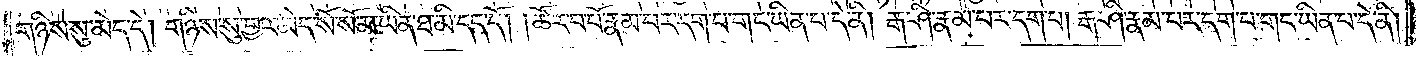གཉིས་སུ་མེད་དེ། གཉིས་སུ་བྱར་མེད་སོ་སོ་མ་ཡིན་ཐ་མི་དད་དོ། །ཚོར་བ་པོ་རྣམ་པར་དག་པ་གང་ཡིན་པ་དེ་ནི། རྒ་ཤི་རྣམ་པར་དག་པ། རྒ་ཤི་རྣམ་པར་དག་པ་གང་ཡིན་པ་དེ་ནི།
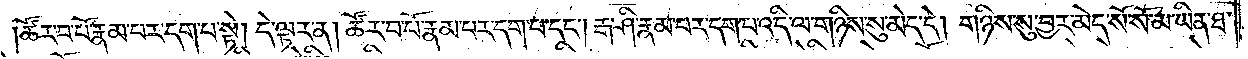ཚོར་བ་པོ་རྣམ་པར་དག་པ་སྟེ། དེ་ལྟར་ན། ཚོར་བ་པོ་རྣམ་པར་དག་པ་དང༌། རྒ་ཤི་རྣམ་པར་དག་པ་འདི་ལ་གཉིས་སུ་མེད་དེ། གཉིས་སུ་བྱར་མེད་སོ་སོ་མ་ཡིན་ཐ་
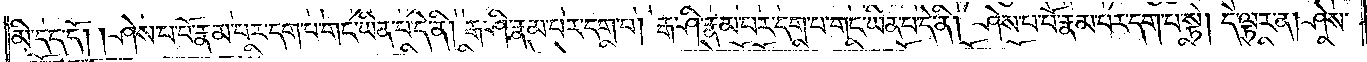མི་དད་དོ། །ཤེས་པ་པོ་རྣམ་པར་དག་པ་གང་ཡིན་པ་དེ་ནི། རྒ་ཤི་རྣམ་པར་དག་པ། རྒ་ཤི་རྣམ་པར་དག་པ་གང་ཡིན་པ་དེ་ནི། ཤེས་པ་པོ་རྣམ་པར་དག་པ་སྟེ། དེ་ལྟར་ན། ཤེས་
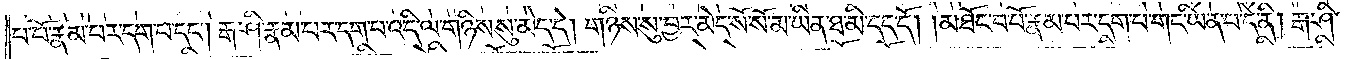པ་པོ་རྣམ་པར་དག་པ་དང༌། རྒ་ཤི་རྣམ་པར་དག་པ་འདི་ལ་གཉིས་སུ་མེད་དེ། གཉིས་སུ་བྱར་མེད་སོ་སོ་མ་ཡིན་ཐ་མི་དད་དོ། །མཐོང་བ་པོ་རྣམ་པར་དག་པ་གང་ཡིན་པ་དེ་ནི། རྒ་ཤི་
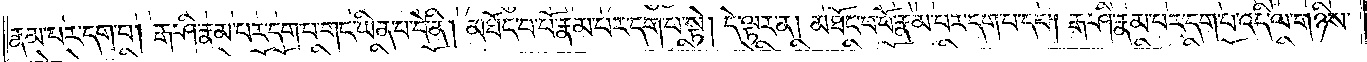རྣམ་པར་དག་པ། རྒ་ཤི་རྣམ་པར་དག་པ་གང་ཡིན་པ་དེ་ནི། མཐོང་བ་པོ་རྣམ་པར་དག་པ་སྟེ། དེ་ལྟར་ན། མཐོང་བ་པོ་རྣམ་པར་དག་པ་དང༌། རྒ་ཤི་རྣམ་པར་དག་པ་འདི་ལ་གཉིས་
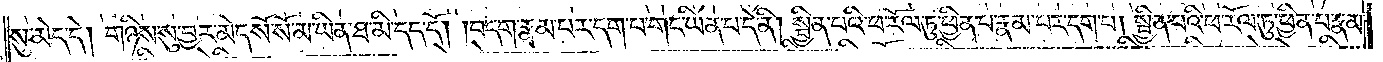སུ་མེད་དེ། གཉིས་སུ་བྱར་མེད་སོ་སོ་མ་ཡིན་ཐ་མི་དད་དོ། །བདག་རྣམ་པར་དག་པ་གང་ཡིན་པ་དེ་ནི། སྦྱིན་པའི་ཕ་རོལ་ཏུ་ཕྱིན་པ་རྣམ་པར་དག་པ། སྦྱིན་པའི་ཕ་རོལ་ཏུ་ཕྱིན་པ་རྣམ་
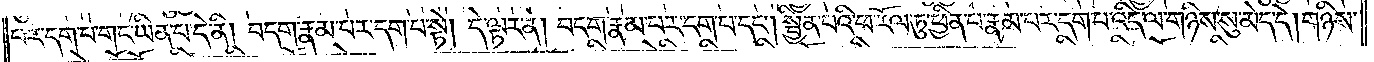པར་དག་པ་གང་ཡིན་པ་དེ་ནི། བདག་རྣམ་པར་དག་པ་སྟེ། དེ་ལྟར་ན། བདག་རྣམ་པར་དག་པ་དང༌། སྦྱིན་པའི་ཕ་རོལ་ཏུ་ཕྱིན་པ་རྣམ་པར་དག་པ་འདི་ལ་གཉིས་སུ་མེད་དེ། གཉིས་
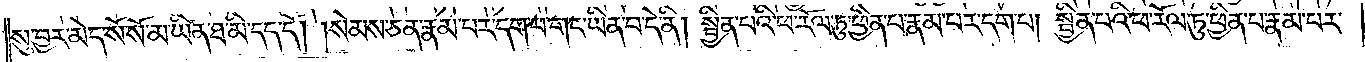སུ་བྱར་མེད་སོ་སོ་མ་ཡིན་ཐ་མི་དད་དོ། །སེམས་ཅན་རྣམ་པར་དག་པ་གང་ཡིན་པ་དེ་ནི། སྦྱིན་པའི་ཕ་རོལ་ཏུ་ཕྱིན་པ་རྣམ་པར་དག་པ། སྦྱིན་པའི་ཕ་རོལ་ཏུ་ཕྱིན་པ་རྣམ་པར་
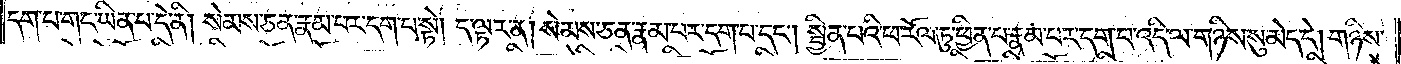དག་པ་གང་ཡིན་པ་དེ་ནི། སེམས་ཅན་རྣམ་པར་དག་པ་སྟེ། དེ་ལྟར་ན། སེམས་ཅན་རྣམ་པར་དག་པ་དང༌། སྦྱིན་པའི་ཕ་རོལ་ཏུ་ཕྱིན་པ་རྣམ་པར་དག་པ་འདི་ལ་གཉིས་སུ་མེད་དེ། གཉིས་
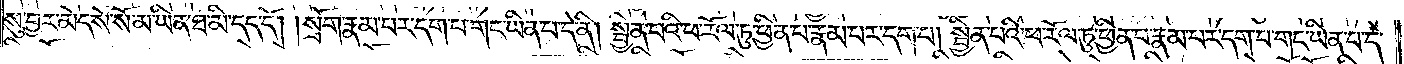སུ་བྱར་མེད་སོ་སོ་མ་ཡིན་ཐ་མི་དད་དོ། །སྲོག་རྣམ་པར་དག་པ་གང་ཡིན་པ་དེ་ནི། སྦྱིན་པའི་ཕ་རོལ་ཏུ་ཕྱིན་པ་རྣམ་པར་དག་པ། སྦྱིན་པའི་ཕ་རོལ་ཏུ་ཕྱིན་པ་རྣམ་པར་དག་པ་གང་ཡིན་པ་དེ་
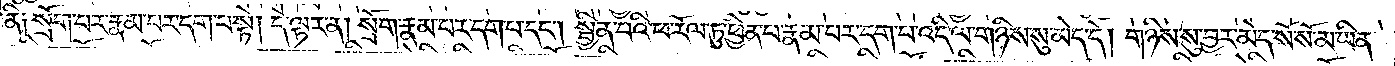ནི། སྲོག་པར་རྣམ་པར་དག་པ་སྟེ། དེ་ལྟར་ན། སྲོག་རྣམ་པར་དག་པ་དང༌། སྦྱིན་པའི་ཕ་རོལ་ཏུ་ཕྱིན་པ་རྣམ་པར་དག་པ་འདི་ལ་གཉིས་སུ་མེད་དེ། གཉིས་སུ་བྱར་མེད་སོ་སོ་མ་ཡིན་
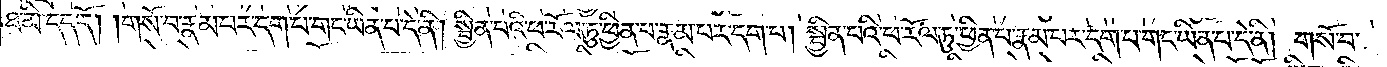ཐ་མི་དད་དོ། །གསོ་བ་རྣམ་པར་དག་པ་གང་ཡིན་པ་དེ་ནི། སྦྱིན་པའི་ཕ་རོལ་ཏུ་ཕྱིན་པ་རྣམ་པར་དག་པ། སྦྱིན་པའི་ཕ་རོལ་ཏུ་ཕྱིན་པ་རྣམ་པར་དག་པ་གང་ཡིན་པ་དེ་ནི། གསོ་བ་
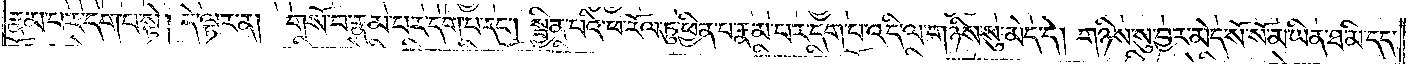རྣམ་པར་དག་པ་སྟེ། དེ་ལྟར་ན། གསོ་བ་རྣམ་པར་དག་པ་དང༌། སྦྱིན་པའི་ཕ་རོལ་ཏུ་ཕྱིན་པ་རྣམ་པར་དག་པ་འདི་ལ་གཉིས་སུ་མེད་དེ། གཉིས་སུ་བྱར་མེད་སོ་སོ་མ་ཡིན་ཐ་མི་དད་
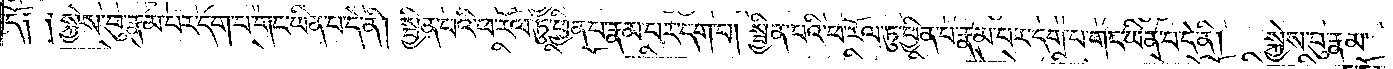དོ། །སྐྱེས་བུ་རྣམ་པར་དག་པ་གང་ཡིན་པ་དེ་ནི། སྦྱིན་པའི་ཕ་རོལ་ཏུ་ཕྱིན་པ་རྣམ་པར་དག་པ། སྦྱིན་པའི་ཕ་རོལ་ཏུ་ཕྱིན་པ་རྣམ་པར་དག་པ་གང་ཡིན་པ་དེ་ནི། སྐྱེས་བུ་རྣམ་
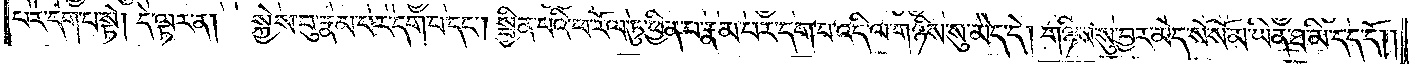པར་དག་པ་སྟེ། དེ་ལྟར་ན། སྐྱེས་བུ་རྣམ་པར་དག་པ་དང༌། སྦྱིན་པའི་ཕ་རོལ་ཏུ་ཕྱིན་པ་རྣམ་པར་དག་པ་འདི་ལ་གཉིས་སུ་མེད་དེ། གཉིས་སུ་བྱར་མེད་སོ་སོ་མ་ཡིན་ཐ་མི་དད་དོ༎
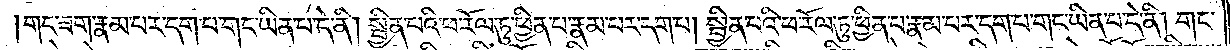གང་ཟག་རྣམ་པར་དག་པ་གང་ཡིན་པ་དེ་ནི། སྦྱིན་པའི་ཕ་རོལ་ཏུ་ཕྱིན་པ་རྣམ་པར་དག་པ། སྦྱིན་པའི་ཕ་རོལ་ཏུ་ཕྱིན་པ་རྣམ་པར་དག་པ་གང་ཡིན་པ་དེ་ནི། གང་
